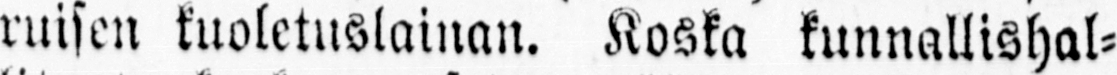ruisen kuoletuslainan. Koska kunnallishal-
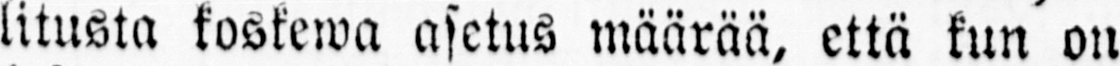litusta koskewa asetus määrää, että kun on
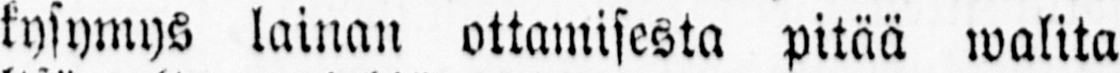kysymys lainan ottamisesta pitää walita
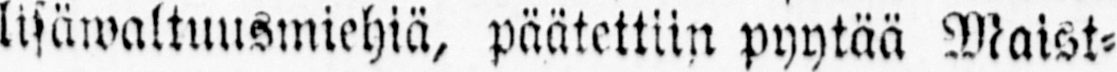lisäwaltuusmiehiä, päätettiin pyytää Maist-
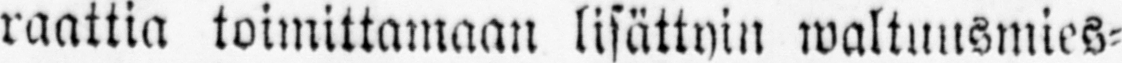raattia toimittamaan lisättyin waltuusmies-
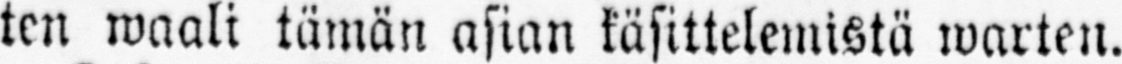ten waali tämän asian käsittelemistä warten.
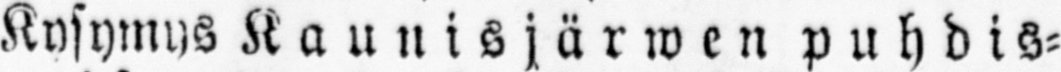Kysymys Kaunisjärwen puhdis-
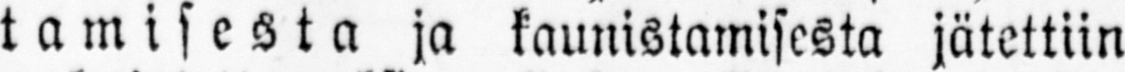tamisesta ja kaunistamisesta jätettiin
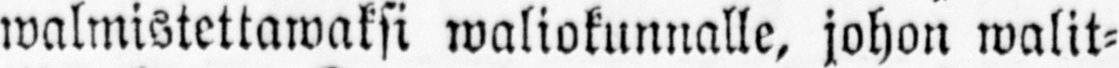walmistettawaksi waliokunnalle, johon walit-
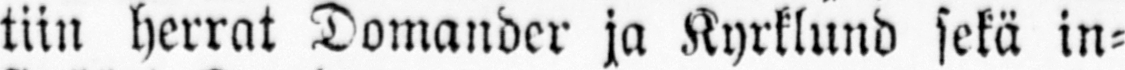tiin herrat Domander ja Kyrklund sekä in-
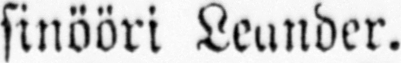sinööri Leander.
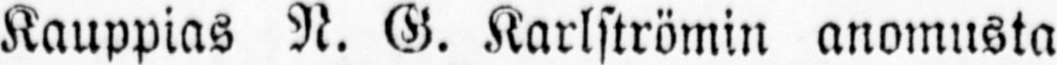Kauppias N. G. Karlströmin anomusta
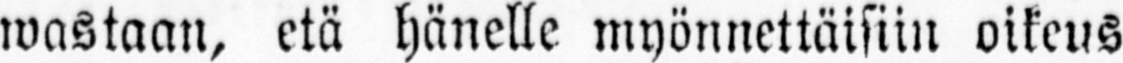wastaan, etä hänelle myönnettäisiin oikeus
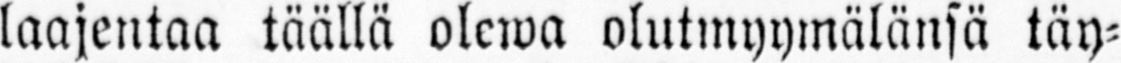laajentaa täällä olewa olutmyymälänsä täy-
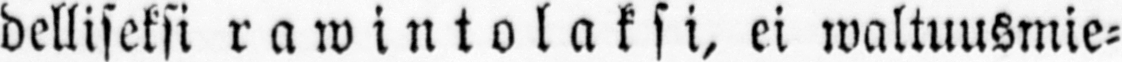delliseksi rawintolaksi, ei waltuusmie-
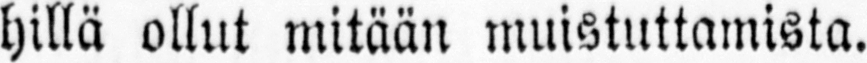hillä ollut mitään muistuttamista.
